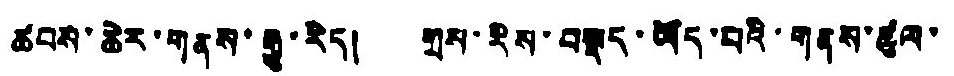ཚབས་ཆེར་གནས་རྒྱུ་རེད། གྲས་རིས་བསྡད་ཡོད་པའི་གནས་ཚུལ་
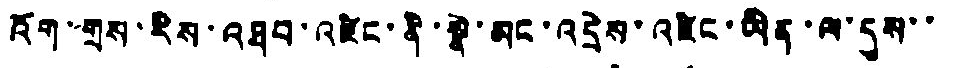འོག་གྲས་རིས་འཐབ་འཛིང་ནི་སྣེ་མང་འདྲེས་འཛིང་ཡིན་ལ་དུས་་
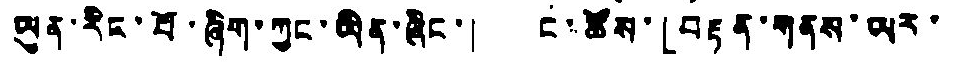ཡུན་རིང་པོ་ཞིག་ཀྱང་ཡིན་ཞིང་། ང་ཚོས་「བརྟན་གནས་ཡར་
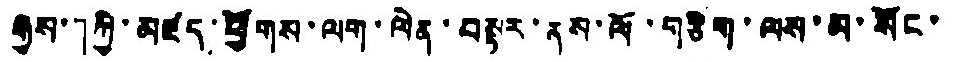རྒྱས་」ཀྱི་མཛད་ཕྱོགས་ལག་ལེན་བསྟར་ནས་ལོ་གཅིག་ལས་མ་སོང་
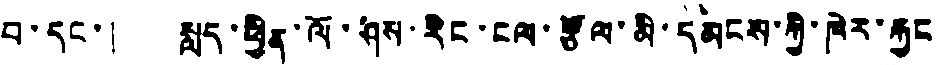བ་དང་། སླད་ཕྱིན་ལོ་ཤས་རིང་ངལ་རྩོལ་མི་དམངས་ཀྱི་ཁེར་རྐྱང
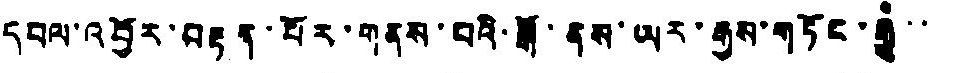དཔལ་འབྱོར་བརྟན་པོར་གནས་པའི་སྒོ་ནས་ཡར་རྒྱས་གཏོང་རྒྱུ་་
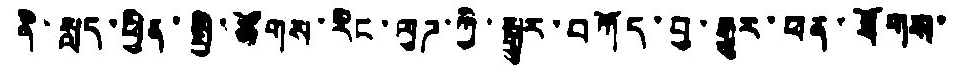ནི་སླད་ཕྱིན་སྤྱི་ཚོགས་རིང་ལུཌ་ཀྱི་སྒྱུར་བཀོད་བྱ་རྒྱུར་ཕན་ཐོགས་
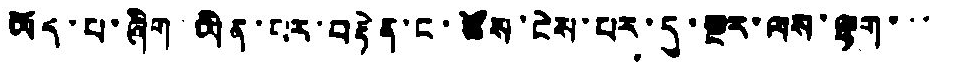ཡོད་པ་ཞིག་ཡིན་པར་བརྟེན་ང་ཚོས་ངེས་པར་དུ་སྔར་ལས་ལྷག་་་
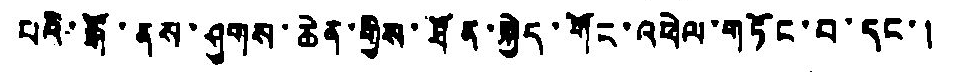པའི་སྒོ་ནུས་ཤུགས་ཆེན་གྱིས་ཐོན་སྐྱེད་གོང་འཕེལ་གཏོང་བ་དང་།
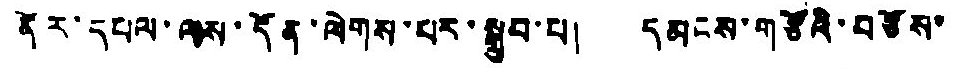ནོར་དཔལ་ལས་དོན་ལེགས་པར་སྒྲུབ་པ། དམངས་གཙོའི་བཙོས་
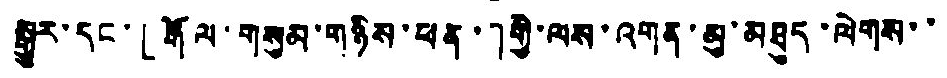སྒྱུར་དང་「རྒོལ་གསུམ་གཉིས་ཕན་」གྱི་ལས་འགན་མུ་མཐུད་ལེགས་་
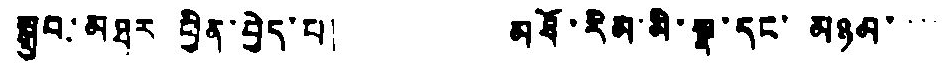སྒྲུབ་མཐར བྱིན་བྱེད་པ། མཐོ་རིམ་མི་སྣ་དང་ མཉམ་་་
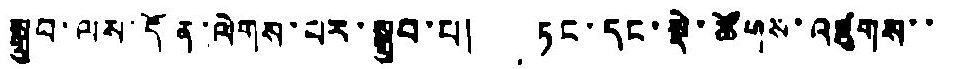སྒྲུབ་ལས་དོན་ལེགས་པར་སྒྲུབ་པ། ཏང་དང་སྡེ་ཚོགས་འཛུགས་་
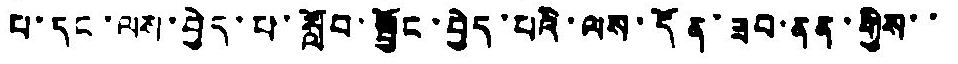པ་དང་ལས་བྱེད་པ་སློབ་སྦྱོང་བྱེད་པའི་ལས་དོན་ཟབ་ནན་གྱིས་་
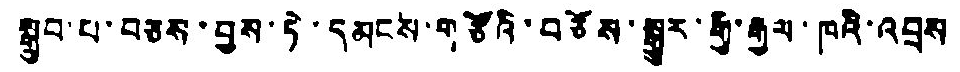སྒྲུབ་པ་བཅས་བྱས་ཏེ་དམངས་གཙོའི་བཅོས་སྒྱུར་གྱི་རྒྱལ་ཁའི་འབྲས
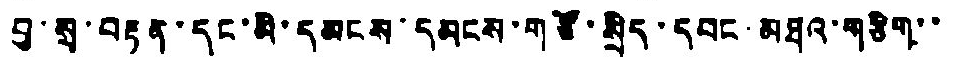བྱ་སྲ་བརྟན་དང་མི་དམངས་དམངས་གཙོ་སྲིད་དབང་མཐའ་གཅིག་་
